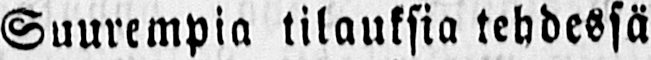Suurempia tilauksia tehdessä
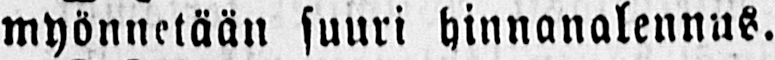myönnetään suuri hinnanalennus.
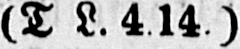(T L. 4.14.)
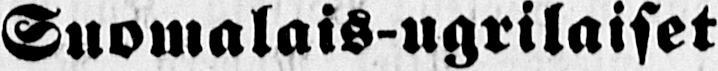Suomalais-ugrilaiset
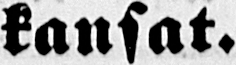kansat.
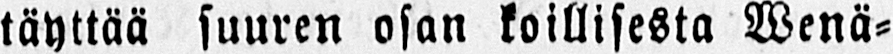täyttää suuren osan koillisesta Wenä-
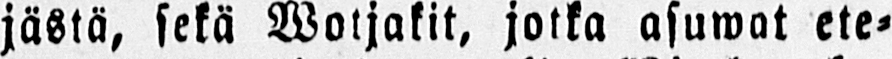jästä, sekä Wotjakit, jotka asuwat ete-
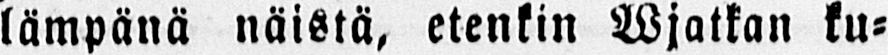lämpönä näistä, etenkin Wjatkan ku-
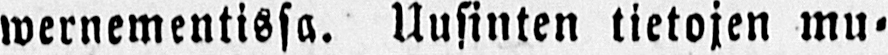wernementissa. Uusinten tietojen mu-
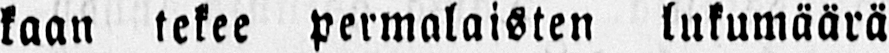kaan tekee permalaisten lukumäärä
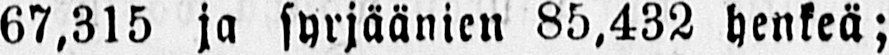67,315 ja syrjäänien 85,432 henkeä;
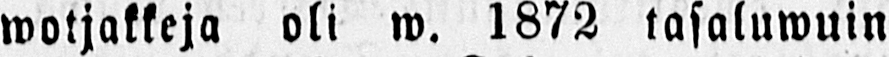wotjakkeja oli w. 1872 tasaluwuin
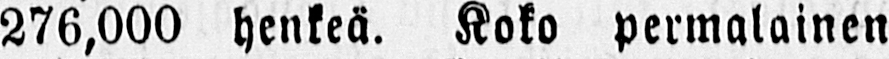276,000 henkeä. Koko permalainen
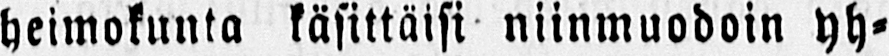heimokunta käsittäisi niinmuodoin yh-
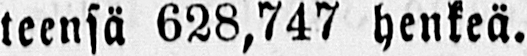teensä 628,747 henkeä.
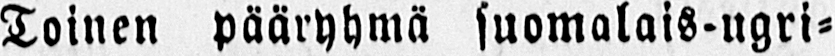Toinen pääryhmä suomalais-ugri-
